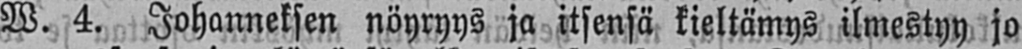W. 4. Johanneksen nöyryys ja itsensä kieltämys ilmestyy jo
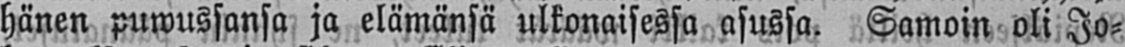hänen puwussansa ja elämänsä ulkonaisessa asussa. Samoin oli Jo-
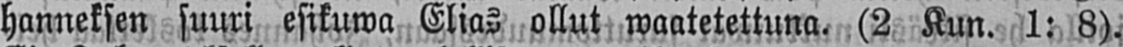hanneksen suuri esikuwa Elias ollut waatetettuna. (2 Kun.1: 8).
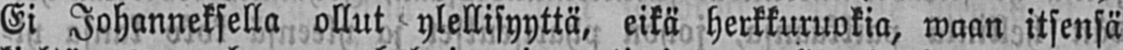Ei Johanneksella ollut ylellisyyttä, eikä herkkuruokia, waan itsensä
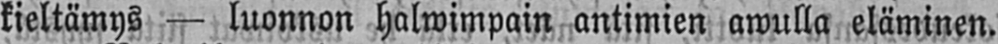kieltämys — luonnon halwimpain antimien awulla eläminen.
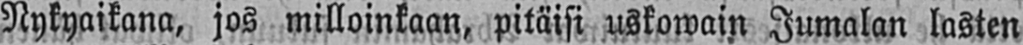Nykyaikana, jos milloinkaan, pitäisi uskowain Jumalan lasten
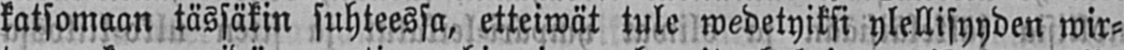katsomaan tässäkin suhteessa, etteiwät tule wedetyiksi ylellisyyden wir-
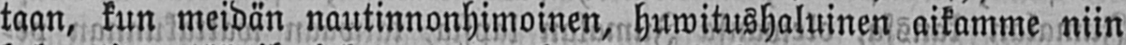taan, kun meidän nautinnonhimoinen, huwitushaluinen aikamme niin
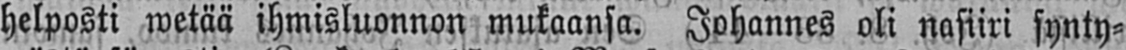helposti wetää ihmisluonnon mukaansa. Johannes oli nasiiri synty-
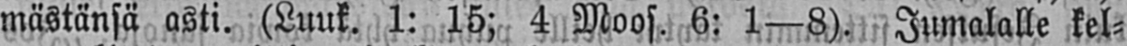mästänsä asti. (Luuk. 1:15; 4 Moos.6: 1 —8). Jumalalle kel-
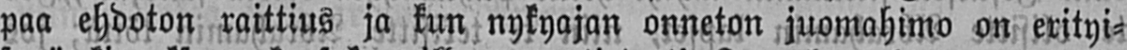paa ehdoton raittius ja kun nykyajan onneton juomahimo on erityi-
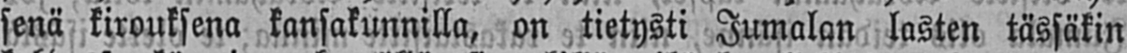senä kirouksena kansakunnilla, on tietysti Jumalan lasten tässäkin
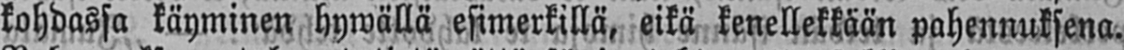kohdassa käyminen hywällä esimerkillä, eikä kenellekkään pahennuksena.
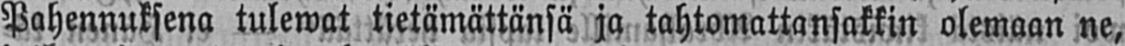Pahennuksena tulewat tietämättänsä ja tahtomattansakkin olemaan ne,
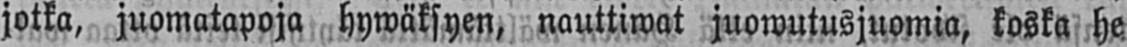jotka, juomatapoja hywäksyen, nauttiwat juowutusjuomia, koska he
